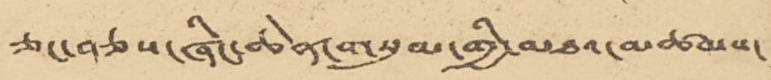ཅང་བཅས་ཞིང་ཆེན་གསུམ་གྱི་མཐའ་མཚམས་
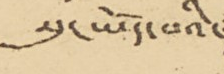སུ་ཡོད་པའི་
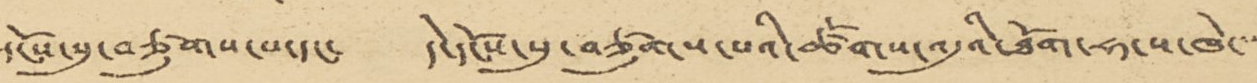དངོས་སུ་བཙུགས་པ་དང་ དེ་དངོས་སུ་བཙུགས་པའི་ཚོགས་འདུའི་ཐོག་ཧ་ས་ཁེ་་་
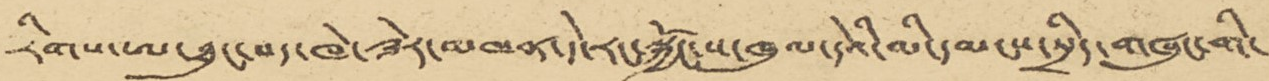རིགས་ཨ་ཐུང་པད་ཁེ་ཟེར་མཁན་དེ་རང་སྐྱོང་ས་ཁུལ་དེའི་མི་དམངས་སྲིད་གཞུང་གི་
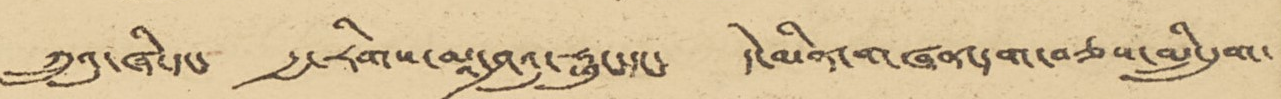ཀྲུའུ་ཞི་དང་ རྒྱ་རིགས་མཱ་ཤའུ་ཧྥུང་དང་ དེ་མིན་གཞན་དག་བཅས་མི་དྲུག་
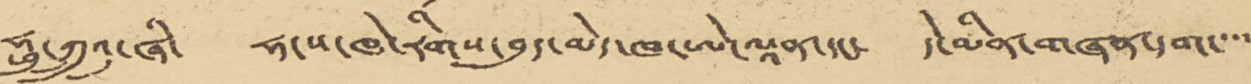ཧྥུ་ཀྲུའུ་ཞི་ ཧ་ས་ཁེ་རིགས་བུད་མེད་ཁ་ཨེ་ལཱན་དང་ དེ་མིན་གཞན་དག་་་་
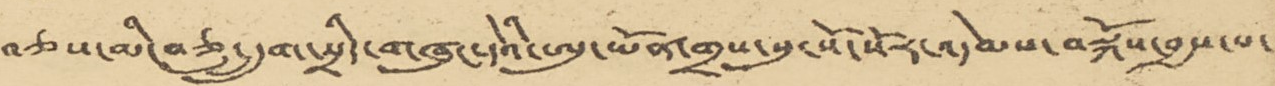བཅས་མི་བཅུ་དྲུག་སྲིད་གཞུང་དེའི་ཨུ་ཡོན་གྲས་སུ་སོ་སོར་འདེམས་བསྐོས་བྱས་པ་
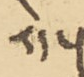རེད་།
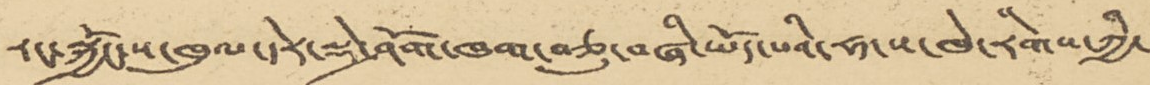རང་སྐྱོང་ས་ཁུལ་དེར་སྡེ་ཤོག་ཁག་བཅུ་བཞི་ཡོད་པའི་ཧ་ས་ཁེ་རིགས་ཀྱི་
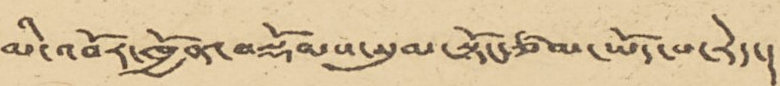མི་འབོར་ཁྱོན་བསྡོམས་སུམ་སྟོང་ཙམ་ཡོད་པ་རེད་།
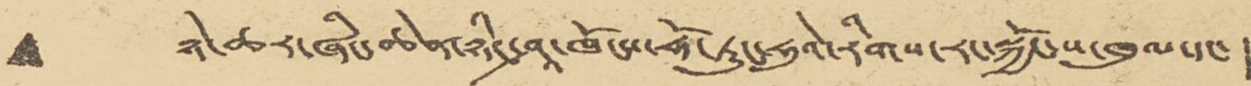• ཉེ་ཆར་ཞིང་ཆེན་ཉིང་ཤཱ་ཁོངས་ཧོ་ཏུང་ཧུའེ་རིགས་རང་སྐྱོང་ས་ཁུལ་དང་ །
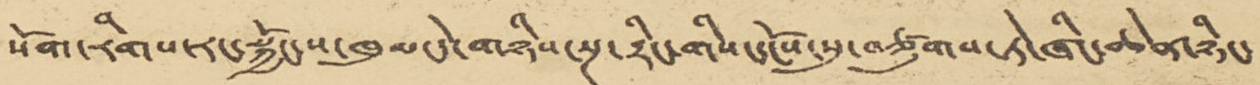སོག་རིགས་རང་སྐྱོང་ས་ཁུལ་དེ་གཉིས་སྔ་རྟིང་གིས་དངོས་སུ་བཙུགས་ཏེ་ཞིང་ཆེན་ཉིང་
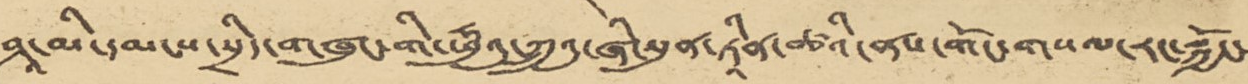ཤཱ་མི་དམངས་སྲིད་གཞུང་གི་ཧྥུའུ་ཀྲུའུ་ཞི་སུན་ཏཱིན་ཚའི་ནས་གོང་གསལ་རང་སྐྱོང་
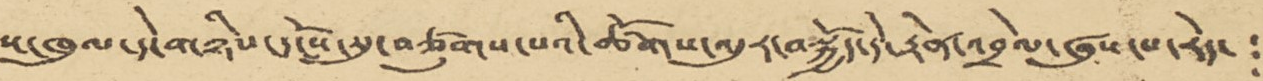ས་ཁུལ་དེ་གཉིས་དངོས་སུ་བཙུགས་པའི་ཚོགས་འདུར་བསྐྱོད་དེ་རྟེན་འབྲེལ་ཞུས་པ་རེད་ །
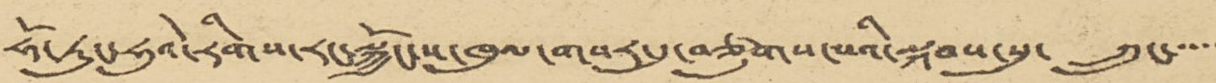ཧོ་ཏུང་ཧུའེ་རིགས་རང་སྐྱོང་ས་ཁུལ་གསར་དུ་བཙུགས་པའི་སྐབས་སུ་ ཀྲུང་་་་་
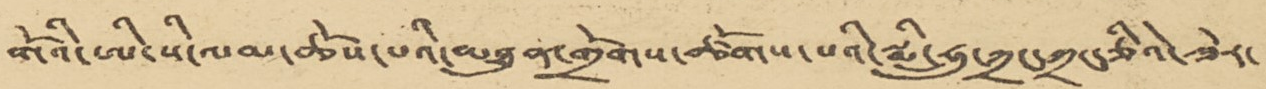གོའི་ཨི་སི་ལམ་ཆོས་པའི་མཐུན་གྲོགས་ཚོགས་པའི་སྨི་ཧྲུ་ཀྲང་ཀྲང་ཅིའེ་ཟེར་
